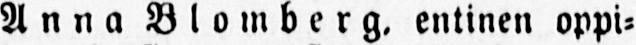Anna Blomberg, entinen oppi-
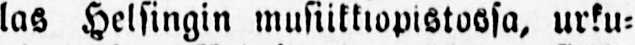las Helsingin musiikkiopistossa, urku-
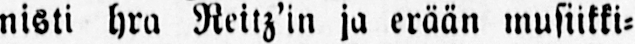nisti hra Reitz'in ja erään musiikki-
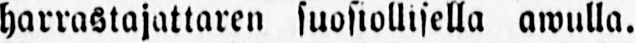harrastajattaren suosiollisella awulla.
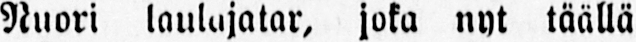Nuori laulajatar, joka nyt täällä
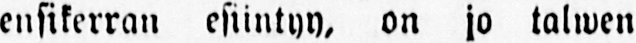ensikerran esiintyy, on jo talwen
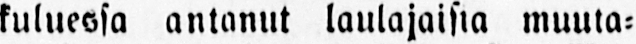kuluessa antanut laulajaisia muuta-
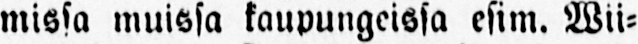missa muissa kaupungeissa esim. Wii-
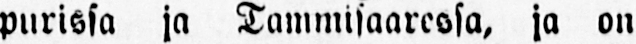purissa ja Tammisaaressa, ja on
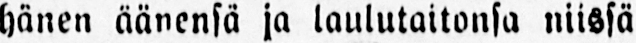hänen äänensä ja laulutaitonsa niissä
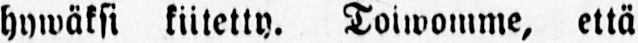hywäksi kiitetty. Toiwomme, että
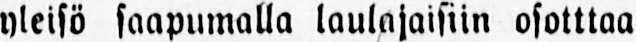yleisö saapumalla laulajaisiin osotttaa
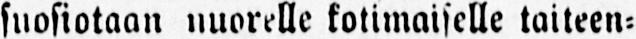suosiotaan nuorelle kotimaiselle taiteen-
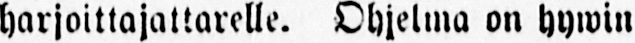harjoittajattarelle. ohjelma on hywin
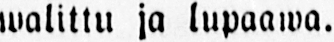walittu ja lupaawa.
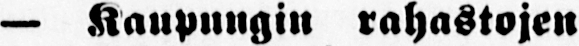— Kaupungin rahastojen
